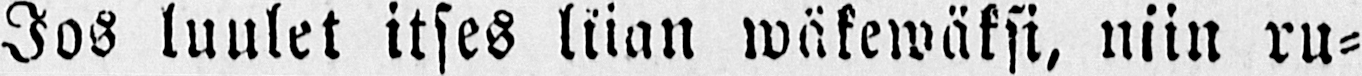Jos luulet itses liian wäkewäksi, niin ru-
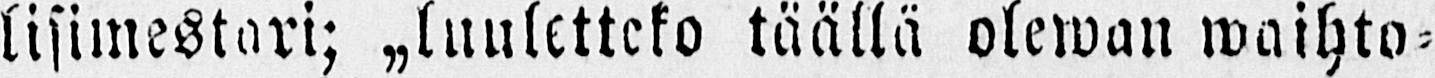lisimestari; "luuletteko täällä olewan waihto-
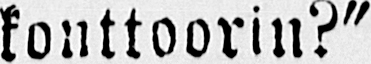konttoorin?"
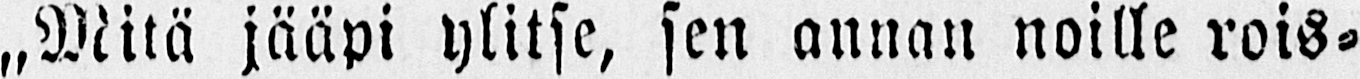„Mitä jääpi ylitse, sen annan noille rois-
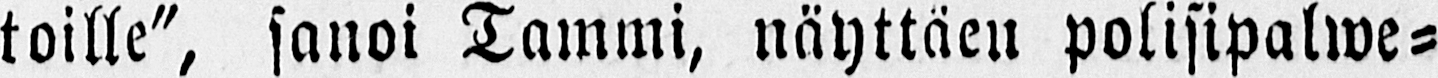toille", sanoi Tammi, näyttäen polisipalwe-
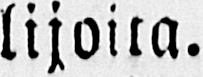lijoita.
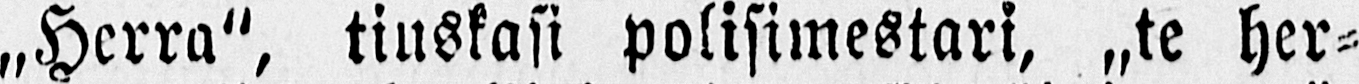„Herra", tiuskasi polisimestari, „te her-
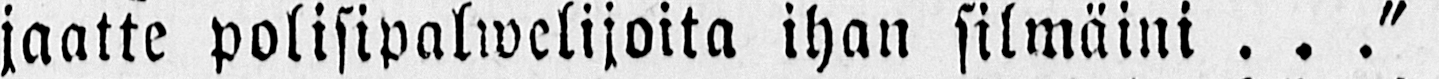jaatte polisipalwelijoita ihan silmäini . . ˮ
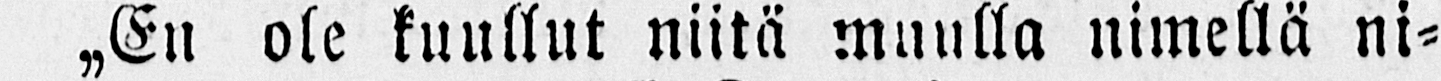˶En ole kuullut niitä muulla nimellä ni-
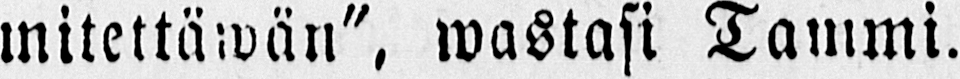mitettäwän", wastasi Tammi.
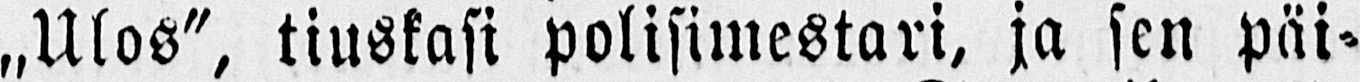„Ulos", tiuskasi polisimestari, ja sen päi-
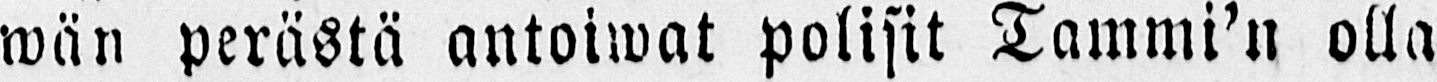wän perästä antoiwat polisit Tammi'n olla
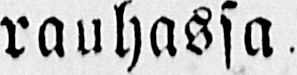rauhassa.
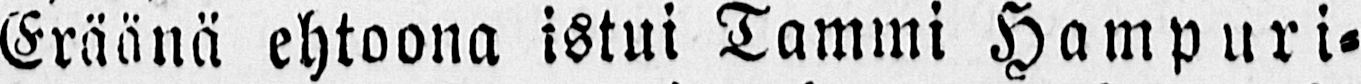Eräänä ehtoona istui Tammi Hampuri-
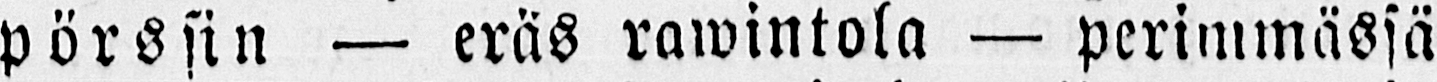pörssin — eräs rawintola — perimmässä
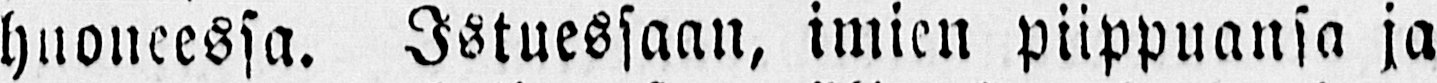huoneessa. Istuessaan, imien piippuansa ja
